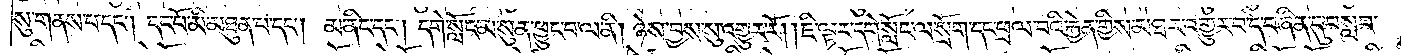སུ་གནས་པ་དང༌། དང་པོ་མི་མཐུན་པ་དང༌། མ་ནིང་དང༌། དགེ་སློང་མ་སུན་ཕྱུང་བ་ལ་ནི། ཉེས་བྱས་སུ་འགྱུར་རོ། །ཇི་ལྟར་དགེ་སློང་ལ་སྲོག་དང་ཕྲལ་བའི་རྐྱེན་གྱིས་མཐར་འགྱུར་བ་དེ་བཞིན་དུ་བསླབ་
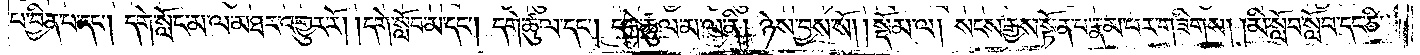པ་བྱིན་པ་དང༌། དགེ་སློང་མ་ལ་མཐར་འགྱུར་རོ། །དགེ་སློབ་མ་དང༌། དགེ་ཚུལ་དང༌། དགེ་ཚུལ་མ་ལ་ནི། ཉེས་བྱས་སོ།    །སྡོམ་ལ། སངས་རྒྱས་སྟོན་པ་རྣམ་པར་གཟིགས། མི་སློབ་སློབ་དང་ཅི་
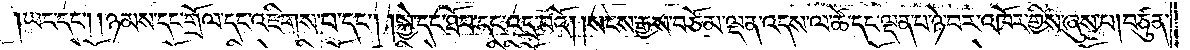།ཡང་དང༌། །ཉམས་དང་གྲོལ་དང་འཇིགས་པ་དང༌། །སྐྱེ་དང་ཐོབ་དང་འདྲ་བའོ། །སངས་རྒྱས་བཅོམ་ལྡན་འདས་ལ་ཚེ་དང་ལྡན་པ་ཉེ་བར་འཁོར་གྱིས་ཞུས་པ། བཙུན་
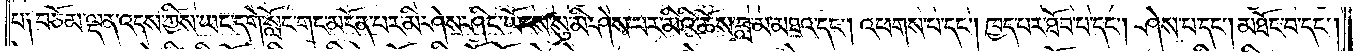པ༑ བཅོམ་ལྡན་འདས་ཀྱིས་ཡང་དགེ་སློང་གང་མངོན་པར་མི་ཤེས་ཤིང་ཡོངས་སུ་མི་ཤེས་པར་མིའི་ཆོས་བླ་མ་མཐའ་དང༌། འཕགས་པ་དང༌། ཁྱད་པར་ཐོབ་པ་དང༌། ཤེས་པ་དང༌། མཐོང་བ་དང༌།
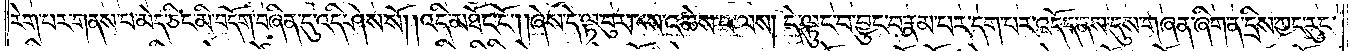རེག་པར་གནས་པ་མེད་ཅིང་མི་བདོག་བཞིན་དུ་འདི་ཤེས་སོ། །འདི་མཐོང་ངོ༌། །ཞེས་དེ་ལྟ་བུར་ཁས་འཆེས་བ་ལས། དེ་ལྟུང་བ་བྱུང་བ་རྣམ་པར་དག་པར་འདོད་ནས་དུས་གཞན་ཞིག་ན་དྲིས་ཀྱང་རུང་
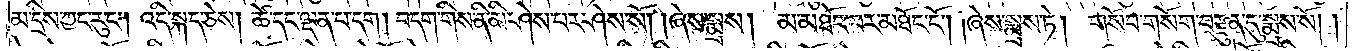མ་དྲིས་ཀྱང་རུང༌། འདི་སྐད་ཅེས། ཚེ་དང་ལྡན་པ་དག། བདག་གིས་ནི་མི་ཤེས་པར་ཤེས་སོ། །ཞེས་སྨྲས། མ་མཐོང་བར་མཐོང་ངོ༌། །ཞེས་སྨྲས་ཏེ། གསོབ་གསོག་བརྫུན་དུ་སྨྲས་སོ། །
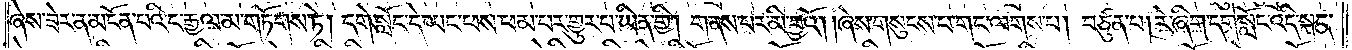ཞེས་ཟེར་ན་མངོན་པའི་ང་རྒྱལ་མ་གཏོགས་ཏེ། དགེ་སློང་དེ་ཡང་ཕས་ཕམ་པར་གྱུར་པ་ཡིན་གྱི། གནས་པར་མི་བྱའོ། །ཞེས་གསུངས་པ་གང་ལགས་པ། བཙུན་པ། རེ་ཞིག་དགེ་སློང་འདི་སྐད་
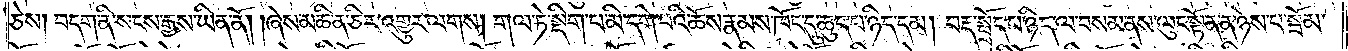ཅེས། བདག་ནི་སངས་རྒྱས་ཡིན་ནོ། །ཞེས་མཆི་ན་ཅིར་འགྱུར་ལགས། གལ་ཏེ་སྡིག་པ་མི་དགེ་བའི་ཆོས་རྣམས་ཁོང་དུ་ཆུད་པ་ཉིད་དམ། བརྡ་སྤྲོད་པ་ཉིད་ལ་བསམ་ནས་ལུང་སྟོན་ན་ཉེས་པ་སྦོམ་
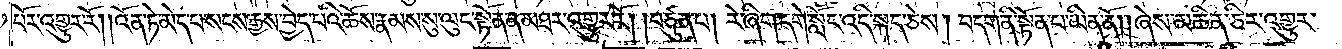པོར་འགྱུར་རོ། །འོན་ཏེ་མེད་པ་སངས་རྒྱས་བྱེད་པའི་ཆོས་རྣམས་སུ་ལུང་སྟོན་ན་མཐར་འགྱུར་རོ། །བཙུན་པ། རེ་ཞིག་དགེ་སློང་འདི་སྐད་ཅེས། བདག་ནི་སྟོན་པ་ཡིན་ནོ། །ཞེས་མཆི་ན་ཅིར་འགྱུར་
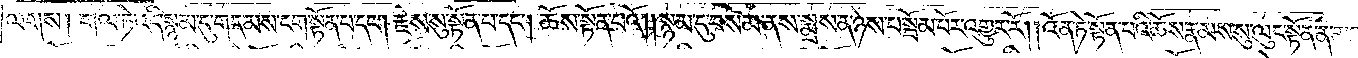ལགས། གལ་ཏེ་འདི་སྙམ་དུ་གདམས་ངག་སྟོན་པ་དང༌། རྗེས་སུ་སྟོན་པ་དང༌། ཆོས་སྟོན་པའོ། །སྙམ་དུ་བསམ་ནས་སྨྲས་ན་ཉེས་པ་སྦོམ་པོར་འགྱུར་རོ། །འོན་ཏེ་སྟོན་པའི་ཆོས་རྣམས་སུ་ལུང་སྟོན་ན་མཐར་
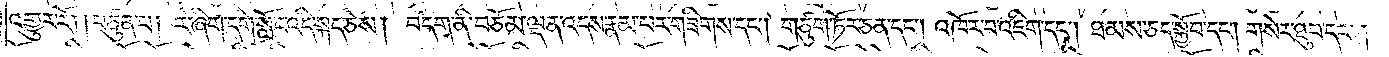འགྱུར་རོ། །བཙུན་པ། རེ་ཞིག་དགེ་སློང་འདི་སྐད་ཅེས། བདག་ནི་བཅོམ་ལྡན་འདས་རྣམ་པར་གཟིགས་དང༌། གཙུག་ཏོར་ཅན་དང༌། འཁོར་བ་འཇིག་དང༌། ཐམས་ཅད་སྐྱོབ་དང༌། གསེར་ཐུབ་དང༌།
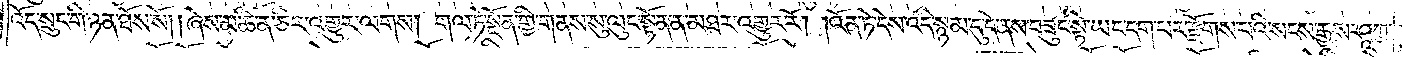འོད་སྲུང་གི་ཉན་ཐོས་སོ། །ཞེས་མཆི་ན་ཅིར་འགྱུར་ལགས། གལ་ཏེ་སྔོན་གྱི་གནས་སུ་ལུང་སྟོན་ན་མཐར་འགྱུར་རོ། །འོན་ཏེ་དེས་འདི་སྙམ་དུ་དེ་ནས་བཟུང་སྟེ་ཡང་དག་པར་རྫོགས་པའི་སངས་རྒྱས་ཤཱཀྱ་
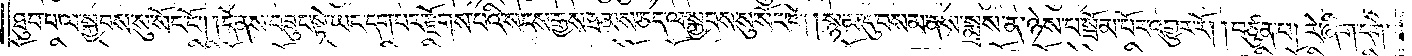ཐུབ་པ་ལ་སྐྱབས་སུ་སོང་ངོ༌། །དེ་ནས་བཟུང་སྟེ་ཡང་དག་པར་རྫོགས་པའི་སངས་རྒྱས་ཐམས་ཅད་ལ་སྐྱབས་སུ་སོང་ངོ༌། །སྙམ་དུ་བསམ་ནས་སྨྲས་ན་ཉེས་པ་སྦོམ་པོར་འགྱུར་རོ། །བཙུན་པ། རེ་ཞིག་དགེ་
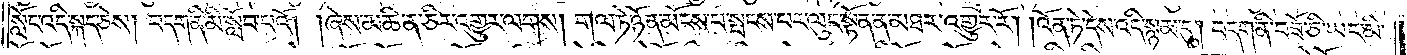སློང་འདི་སྐད་ཅེས། བདག་ནི་མི་སློབ་པའོ། །ཞེས་མཆི་ན་ཅིར་འགྱུར་ལགས། གལ་ཏེ་ཉོན་མོངས་པ་སྤངས་པར་ལུང་སྟོན་ན་མཐར་འགྱུར་རོ། །འོན་ཏེ་དེས་འདི་སྙམ་དུ། བདག་ནི་བཟོ་ཅི་ཡང་མི་
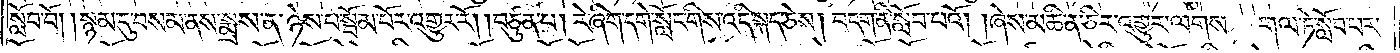སློབ་བོ། །སྙམ་དུ་བསམ་ནས་སྨྲས་ན་ཉེས་པ་སྦོམ་པོར་འགྱུར་རོ། བཙུན་པ། རེ་ཞིག་དགེ་སློང་གིས་འདི་སྐད་ཅེས། བདག་ནི་སློབ་པའོ། །ཞེས་མཆི་ན་ཅིར་འགྱུར་ལགས། གལ་ཏེ་སློབ་པར་
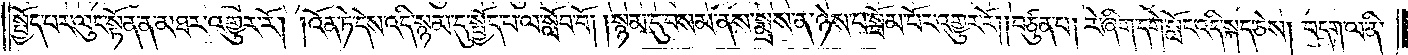སྤྱོད་པར་ལུང་སྟོན་ན་མཐར་འགྱུར་རོ། །འོན་ཏེ་དེས་འདི་སྙམ་དུ་སྤྱོད་པ་ལ་སློབ་བོ། །སྙམ་དུ་བསམ་ནས་སྨྲས་ན་ཉེས་པ་སྦོམ་པོར་འགྱུར་རོ། །བཙུན་པ། རེ་ཞིག་དགེ་སློང་འདི་སྐད་ཅེས། བདག་ལ་ནི་
